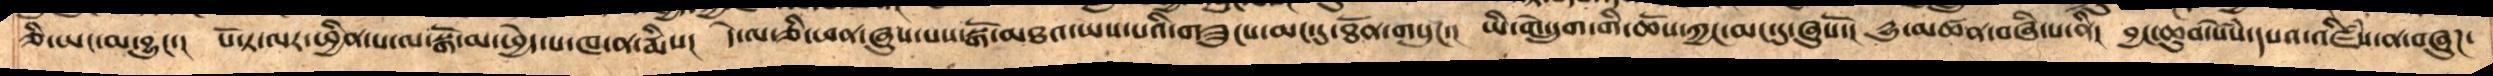ཅི་ཡང་མ་བྱུང་།  པོ་ཏ་ལར་ཕྱིན་པ་ལ་སྒོ་མ་ཕྱེད་པ་ཁ་ན་རྨིས།  དེ་ལ་ཅི་ཕན་ཞུས་པས་སྒོ་མཐའ་ཡས་པའི་གཟུངས་མང་དུ་ཐོན་གསུང།  ཡི་གེ་དྲུག་གི་ཆོས་ཀྱང་མང་དུ་ཞུསོ་།  དྱུ་མཚན་བཞི་པ་ནི།  བྱང་ཆུབ་སེསཾ་དཔའ་འཛིསཾ་ན་བཞུཌ་
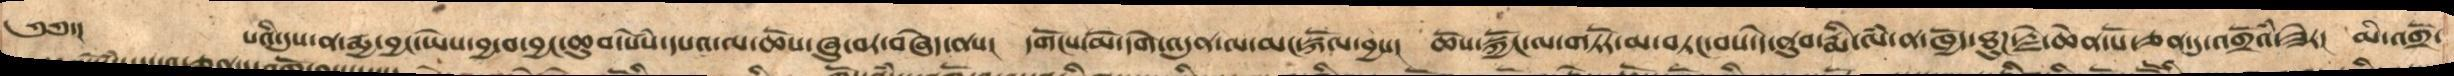༄༅་།       པའི་དུས་ན་རྨྱ་བྱ་བྱང་ཡེས་བྱ་བ་བྱང་ཆུབ་སེཾས་དཔའ་ལ་ཆོས་ཞུ་བར་བཞེད་ནས།  དགོངས་མོ་དགེ་འདུན་ལ་མང་སྐོལ་བྱས། ཆོས་སྐྱོང་ལ་གཏོར་མ་བཏང་བས་དེ་ནུབ་རྨི་ལཾ་ན་ཁྱོད་ཐུཌ་རྗེ་ཆེན་པོ་ཅན་དུ་འགྲོའཾ་ཟེར། མི་འགྲོ་
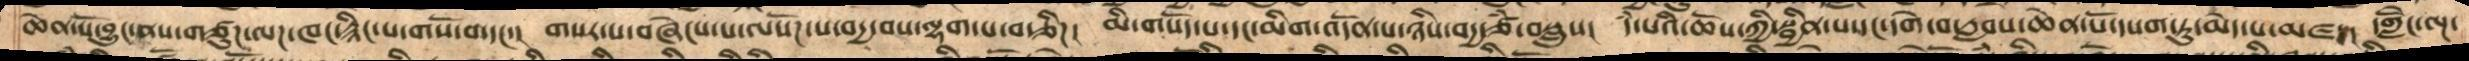ཆེན་པོ་བྱུང་ནས་གཙུཌ་ལཌ་ཁང་རྙིང་པ་གསོ་བ་དང་།  གསར་པ་བཞེངས་པ་ལསོཌ་པ་བདྱ་བས་ལྷག་པ་བརྩིཌ།  མི་གསོད་པ་དང་མིག་འདོན་པ་ཉིས་བདྱ་ཙཾ་བསླུས།  དཾ་པའི་ཆོས་ཀྱི་སྦྱིན་པ་དང་དགེ་བ་རླབས་ཆེན་པོ་དཔག་ཏུ་མེད་པ་མཛད།  དགླེོང་ལྔ་
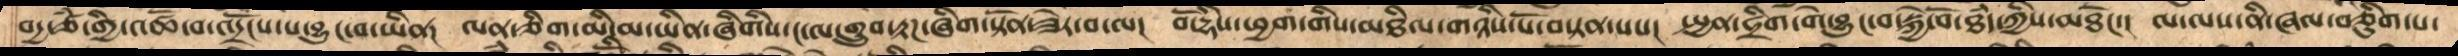བདྱ་ཙཾ་གྱི་འཚོ་བ་འདྲོངས་པ་བྱུང་བ་ཡིན།  ལན་ཅིག་མི་མ་ཡིན་ཞིགིས་ང་ལ་གྲུབ་རྟཌ་ཞིག་སྟོན་ཟེར་བ་ལ།  བོ་དྷིས་ཕྱག་གིས་མཐིལ་གཉིས་པོ་བསྟན་པས།  སྤྱན་ཧྲིག་གེ་བྱུང་བ་སྐྱེ་བོ་ཐཾད་ཀྱིས་མཐོང་།  ལ་ལས་ནི་ཞལ་བཅིུག་པ་
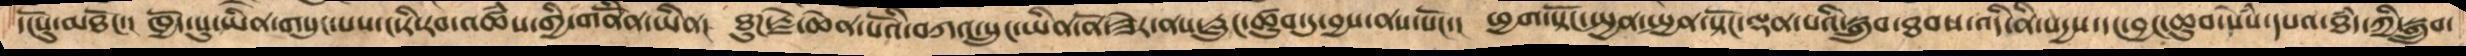དངོསུ་མཐོང་།  ཁྱེད་སུ་ཡིན་གསུང་པས་ང་རི་རབ་ཀྱི་འཚཾས་གྱི་གནོིན་ཡིན།  ཐུཌ་རྗེ་ཆེན་པོའི་བཀའ་སྲུང་ཡིན་ནོ་ཟེར་ནས་རླུང་ཚུབ་དུ་བྱས་ནས་སོང་།  ཕྱག་སྟོང་སྤྱན་སྤྱན་སྟོང་ལྡན་པའི་སྒྲུབ་ཐབས་འདི་ནི་སདྱས་དང་བྱང་ཆུབ་སེཾས་དཔའ་ཐཾད་ཀྱི་སྒྲུབ་
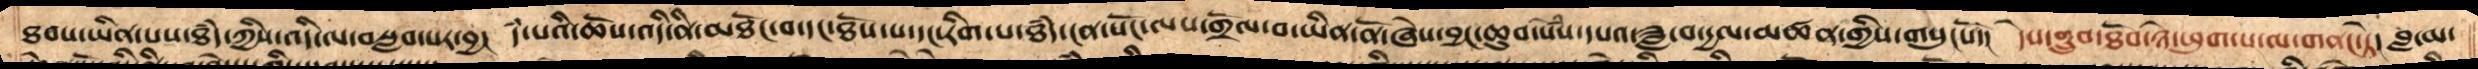ཐབས་ཡིན་པས་ཐཾད་ཀྱིས་འདི་ལ་བསླབ་པར་བྱ།  དཾ་པའི་ཆོས་འདི་ནི་མཐོང་བ་དང་ཐོས་པ་དང་རིག་པ་ཐཾད་ངན་སོང་ལས་གྲོལ་བ་ཡིན་ནོ་ཞེས་བྱང་ཆུབ་སེཾས་དཔལ་ཟླ་བ་དྱལ་མཚན་གསུངསོ།  དེས་གྲུབ་ཐོབ་ཉེད་ཕུག་པ་ལ་གནང་སྟེ།  བླ་མ་
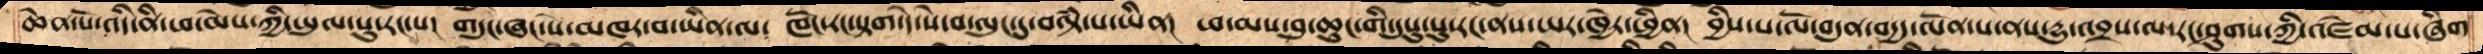ཆེན་པོ་འདི་ནི་ཕ་མེས་ཀྱི་ཡུལ་པུ་རང་པ།  གདུང་ཞང་སེ་མཁར་བ་ཡིན་ལ།  ཁོང་རང་སྟག་དེ་སེ་བ་ལུང་དུ་བལྟཾ་པ་ཡིན།  ཕ་མས་བུ་ཆུང་གི་དུས་པུ་རང་ནས་ཡར་ཁྱེར་ཕྱིན།  བྱིས་པ་ལོ་བདུན་བདྱད་ལོན་པ་ནས་དྱུ་འབྲས་ལ་རང་ཤུགས་ཀྱི་འཛེམ་པ་ཞིག
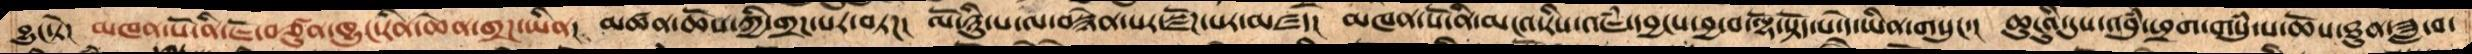བྱུང་ཏེ།  མཁན་པོ་ནི་ཇོ་བཙུན་ཁྱུང་ཪིན་ཆེན་གྲཌ་ཡིན།  མཚན་ཆོས་ཀྱི་གྲཌ་པར་བཏཌ།  ལོ་ཉིུ་པ་ལ་བསྙེན་པར་སྫོཌ་པར་མཛད།  མཁན་པོ་ནི་མངའ་རིས་འཇཾ་དབྱངས་བྱ་བ་ལྷོ་སྟོད་པ་དེ་ཡིན་གསུང་།   ཆུངའི་དུས་འབུཾ་ཕྲག་གསུཾ་པ་ཆོས་ཐུན་ཟླ་བ་
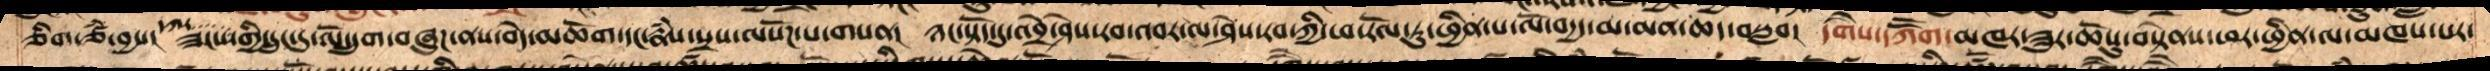ཅིག་ཙཾ་བྱས།  ཟངས་དཀར་གྱི་དྲུང་དུ་ལོ་དྲུག་བཞུཌ་ནས་བདེ་མཆོག་དང་རྣཾས་སྲས་ལསོཌ་པ་གསན།  ཉང་སྟོང་དུ་འབྲེ་ཤེས་རབ་འབར་ལ་ཤེས་རབ་ཀྱི་ཕ་རོལ་ཏུ་ཕྱིན་པ་ལོ་བདྱད་མ་མན་ཆད་བསླབ།  དགཻས་དཀཽག་མཁར་ཟུར་ཆོསུ་བསྟེནས་ཕར་ཕྱིན་ལ་མཁས་པར་
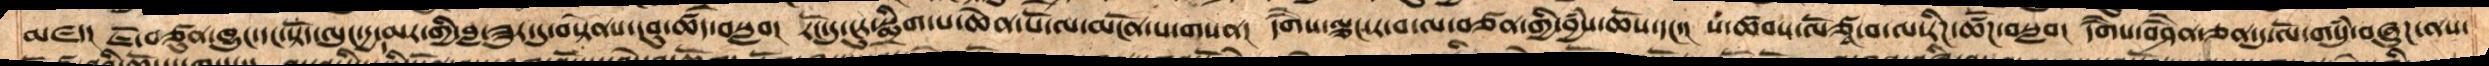མཛད། ཇོ་བཙུན་ཁྱུང་དང་སྟོད་ལུང་དྱ་དམར་གྱི་བླ་ཟུར་དུ་བསྟེནས་དབུ་ཚད་བསླབ། རོང་དུ་ངུར་སྨྲིག་པ་ཆེན་པོ་ལ་མངོན་པ་གསན། དགཻས་ལྕང་ར་བ་ལ་བཙན་གྱི་བྱཾས་ཆོས་དང་། པ་ཚབས་ལོཙཱ་བ་ལ་རིཌ་ཚོཌ་བསླབ། དགཻས་བཤཻན་ཅན་དུ་ལོ་གསུཾ་བཞུཌ་ནས་
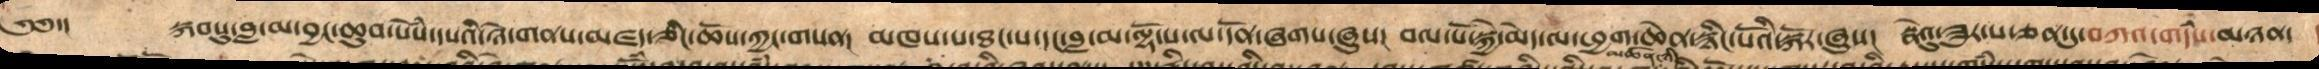༄༅་།    སྐབསུ་བླ་མ་བྱང་ཆུབ་སེཾས་དཔའི་ཉེ་གནས་མཛད་ཅིང་ཆོས་ཀྱང་གསན། མཁན་པ་ཐང་པ་དང་བླ་མ་ལྷོ་པ་ལ་དོན་ཞགས་ཞུས། བལ་པོ་སྐྱེ་མེད་ལ་ཕྱག་ཆེན་སྙིང་པོའི་སྐོར་ཞུས།  སྣེའུ་ཟུར་པ་ཅན་དུ་བཀའ་གདཾས་མཉན།
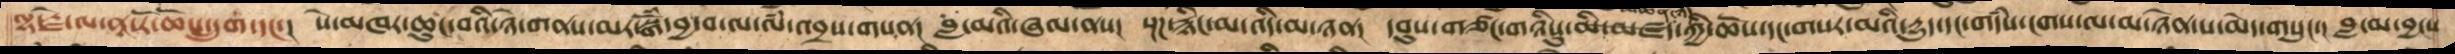ལྷ་རྗེ་ལ་ནཱ་རོ་ཆོས་དྲུག་དང་། སེ་མཁར་ཆུང་བའི་ཉེ་གནས་མར་སྒོཾ་བྱ་བ་ལ་ལཾ་འབྲས་གསན། བླ་མའི་ཞལ་ནས། སྔཌ་རྙིང་མ་འདི་མ་ཉན། དབུས་གཙང་གཉིསུ་མི་མཛད་མཚན་ཉིད་ཀྱི་ཆོས་དང་གསར་མའི་དྱུད་དང་གདཾས་ངགས་ལ་མ་ཉེན་པ་མེད་གསུང། བླ་མ་བྱངས་
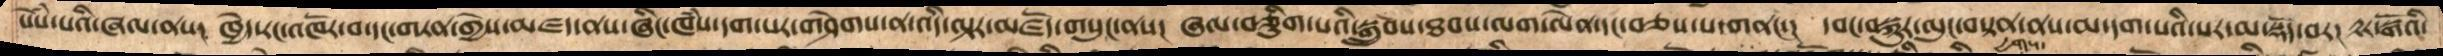སེཾས་པའི་ཞལ་ནས།  ཁྱེད་རང་འཁོར་བ་དང་གཏན་གྱེས་མཛད་ནས་ཞིང་ཁཾས་དག་པར་གཤེགས་ན་འདི་ལྟར་མཛོད་གསུང་ནས། ཞལ་བཅིུག་པའི་སྒྲུབས་ཐབས་ལག་ལེན་དང་བཅས་པ་གནང་། དབང་བསྐུར་ལུང་བསྟན་ནས་མ་དག་པའི་པར་མ་སྡོད་བར། རྟར་སྒོའི་
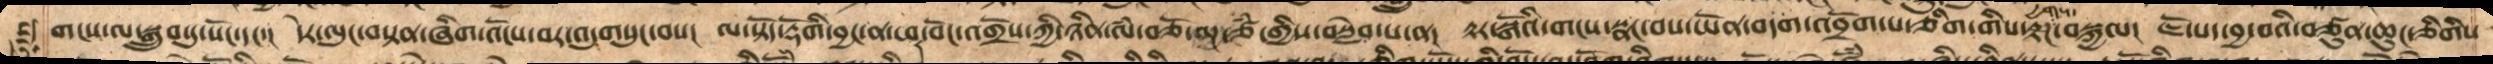གངས་ལ་སྒྲུབསུ་སོང་དང་། དེར་ལུང་བསྟན་ཞིག་འོངས་བར་འདུགསུང་བས། ལ་སྟོད་རྡོགི་བྱང་ན་ཕར་བོང་འགྲོས་ཀྱི་ཉིན་ལཾ་བཅོ་ལྔ་ཙཾ་གྱིས་བསླེབ་པ་ན། རྟར་སྒོའི་གངས་སྣང་བས་ཡོན་བདག་འབྲོག་པ་ཅིག་གིས་རྟཌ་དྱགས་བསྐྱལ། ཇོ་པད་བྱ་བའི་བཙུན་ཆུང་ཅིགིས་
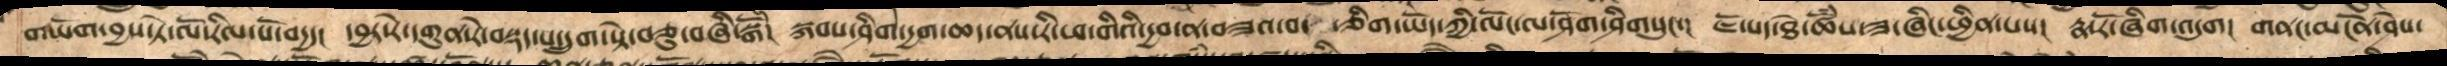གཡོག་བྱས་ཏེ་ལོ་རིལ་པོ་བདྱད།  དབྱར་དགུན་རེ་བསྡད་པ་དྲུག་སྟེ་བཅུ་བཞི་བསྒོཾ།  སྐབས་ཤིག་དྱག་ཆད་ནས་རི་ཕ་གིའི་དྱབ་ན་བཟའ་བ་ ཅིག་ཡོད་ཀྱི་ལོང་ལ་ཤོག་ཤིགསུངས།  ཇོ་པད་ཐེ་ཚོཾས་ཟ་ཞིང་ཕྱིན་པས།  རྣ་རོ་ཞིག་འདུག།  གནང་མངོན་ཤེས་
